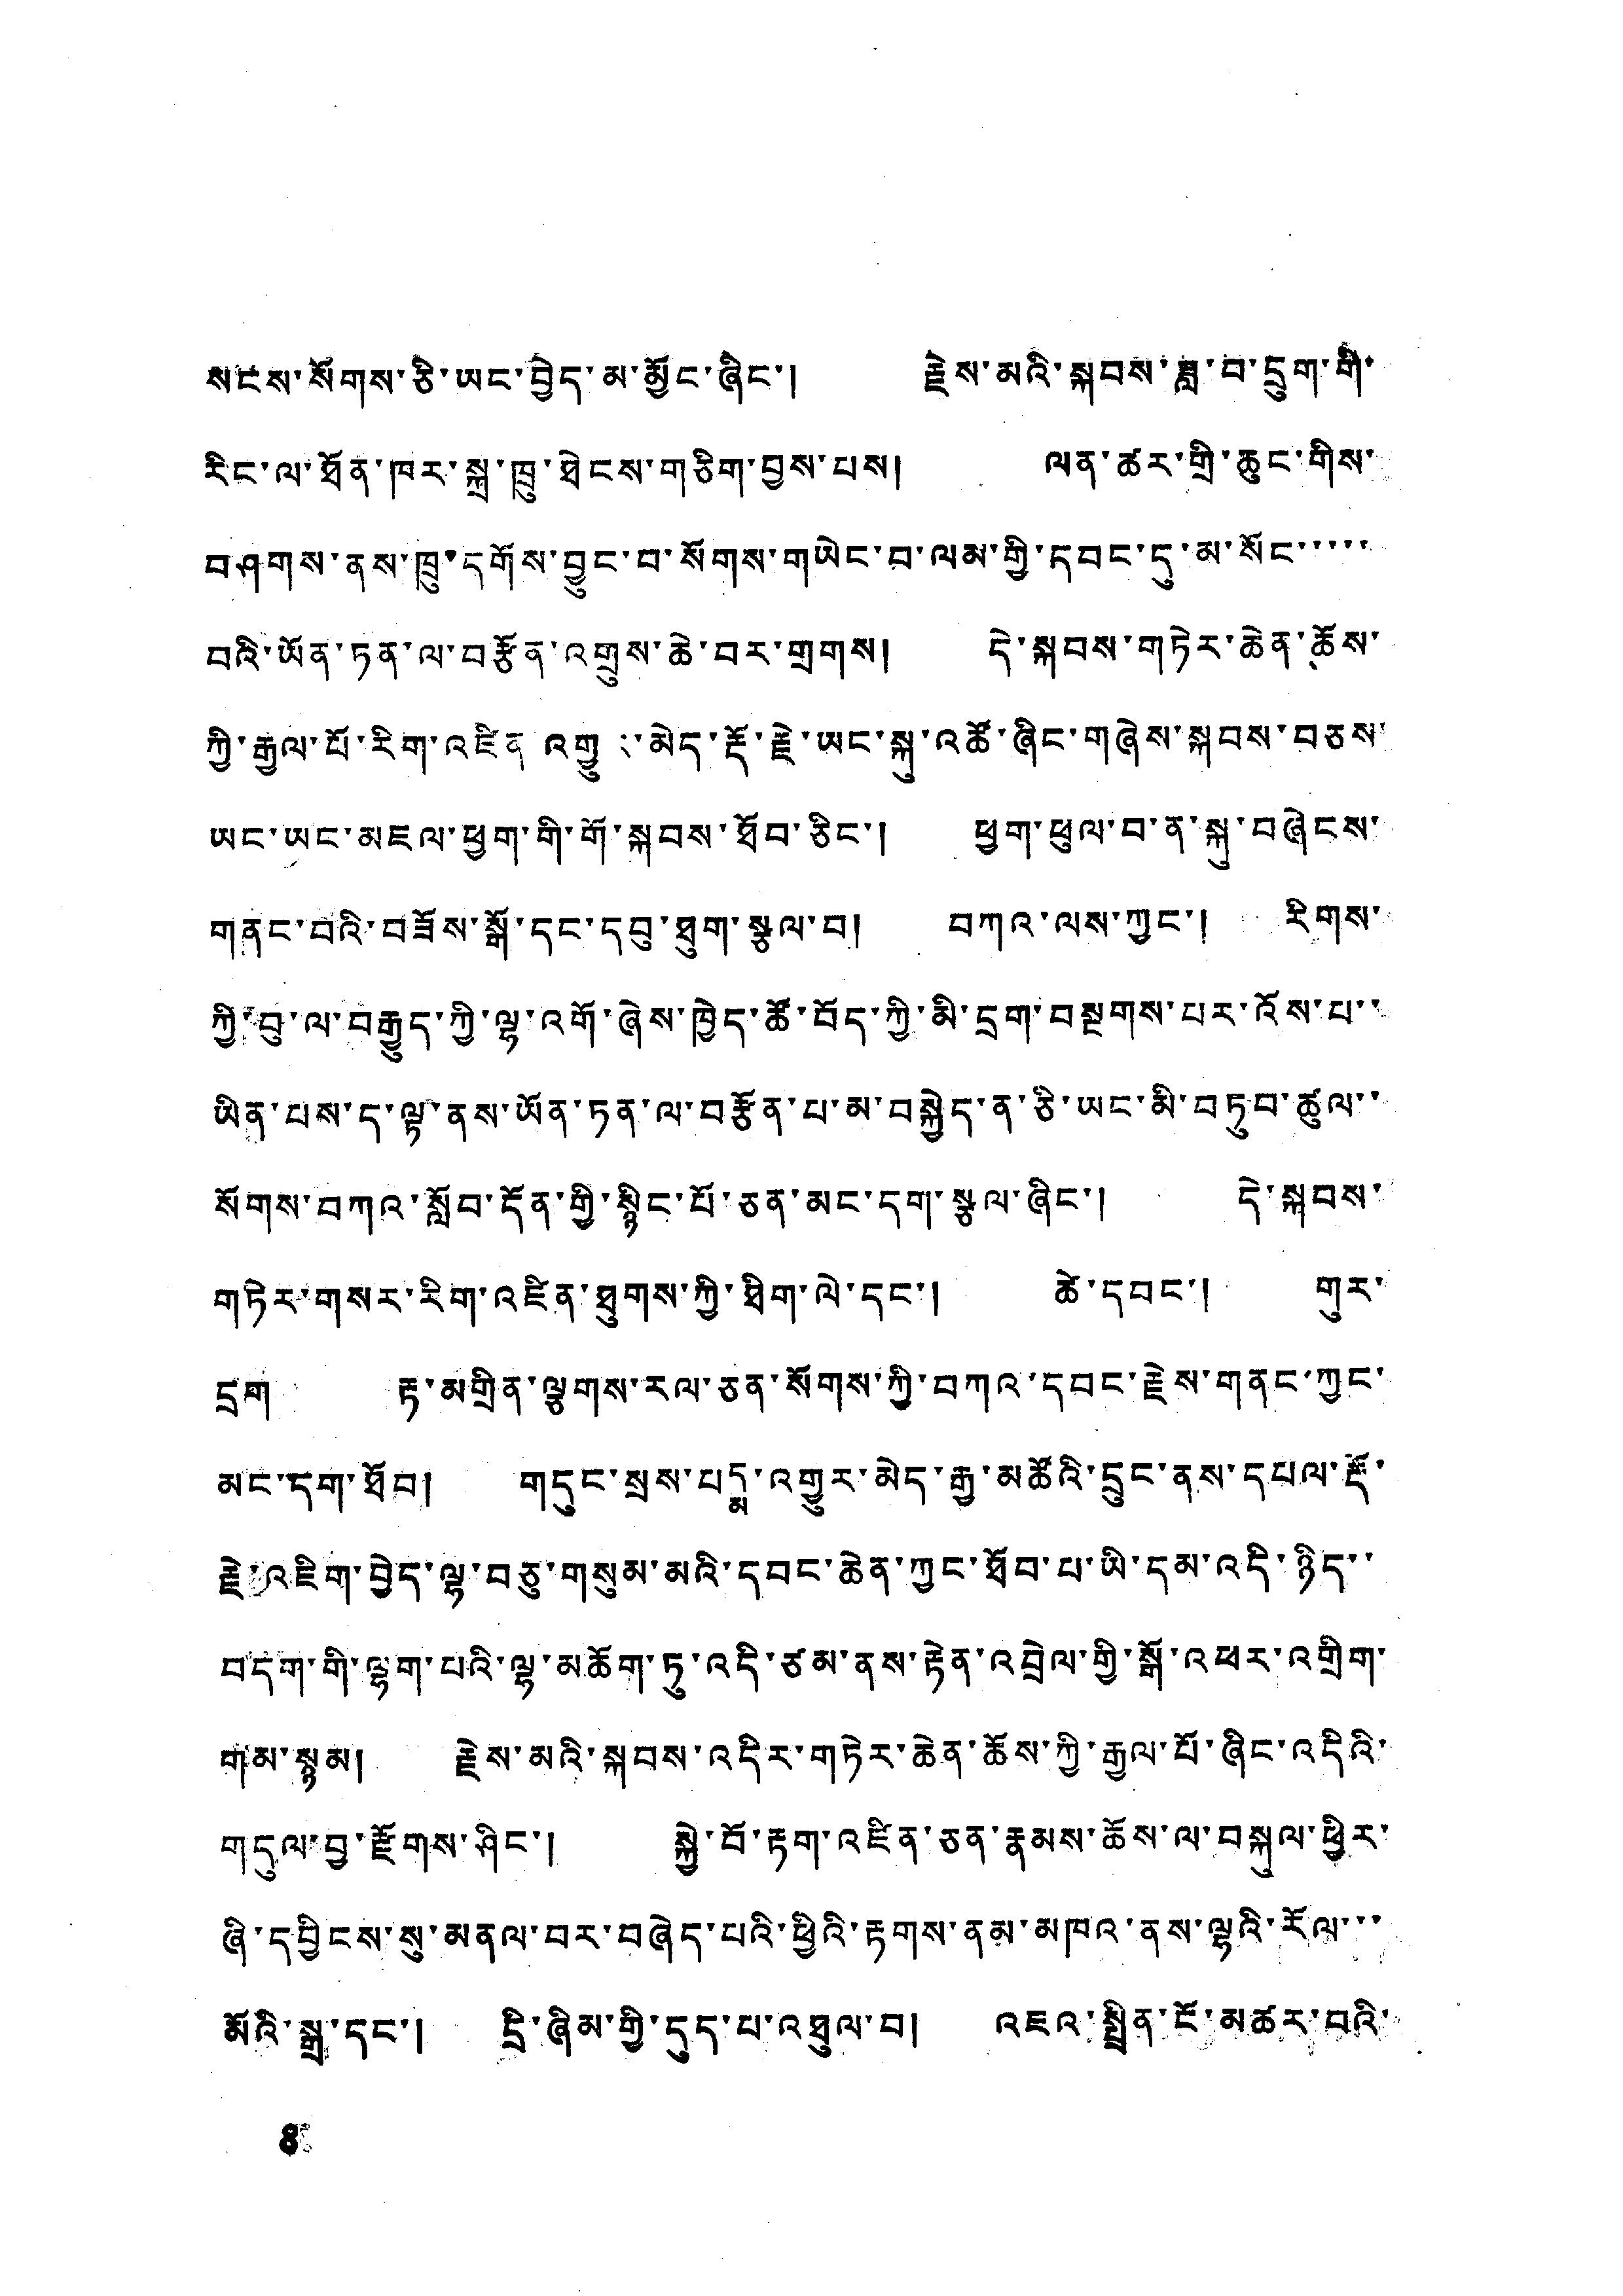སངས་སོགས་ཅི་ཡང་བྱེད་མ་མྱོང་ཞིང་། རྗེས་མའི་སྐབས་ཟླ་བ་དྲུག་གི་
རིང་ལ་ཐོན་ཁར་སྐྲ་ཁྲུ་ཐེངས་གཅིག་བྱས་པས། ལན་ཚར་གྱི་ཆུང་གིས་
བཤགས་ནས་ཁྲུ་དགོས་བྱུང་བ་སོགས་གཡེང་བ་ལམ་གྱི་དབང་དུ་མ་སོང་་་་་
བའི་ཡོན་ཏན་ལ་བརྩོན་འགྲུས་ཆེ་བར་གྲགས། དེ་སྐབས་གཏེར་ཆེན་ཆོས་
ཀྱི་རྒྱལ་པོ་རིག་འཛིན་འགྱུར་མེད་རྡོ་རྗེ་ཡང་སྐུ་འཚོ་ཞིང་གཞེས་སྐབས་བཅས་
ཡང་ཡང་མཇལ་ཕྱག་གི་གོ་སྐབས་ཐོབ་ཅིང་། ཕྱག་ཕུལ་བ་ན་སྐུ་བཞེངས་
གནང་བའི་བཟོས་སྒོ་དང་དབུ་ཐུག་སྩལ་བ། བཀའ་ལས་ཀྱང་། རིགས་
ཀྱི་བུ་ལ་བརྒྱུད་ཀྱི་ལྷ་འགོ་ཞེས་ཁྱེད་ཚོ་བོད་ཀྱི་མི་དྲག་བསྔགས་པར་འོས་པ་་
ཡིན་པས་ད་ལྟ་ནས་ཡོན་ཏན་ལ་བརྩོན་པ་མ་བསྐྱེད་ན་ཅི་ཡང་མི་བཏུབ་ཚུལ་་
སོགས་བཀའ་སློབ་དོན་གྱི་སྙིང་པོ་ཅན་མང་དག་སྩལ་ཞིང་། དེ་སྐབས་་
གཏིར་གསར་རིག་འཛིན་ཐུགས་ཀྱི་ཐིག་ལེ་དང་། ཚེ་དབང་། གུར་
དྲག རྟ་མགྲིན་ལྕགས་རལ་ཅན་སོགས་ཀྱི་བཀའ་དབང་རྗེས་གནང་ཀྱང་
མང་དག་ཐོབ། གདུང་སྲས་པདྨ་འགྱུར་མེད་རྒྱུ་མཚོའི་དྲུང་ནས་དཔལ་རྡོ་
རྗེ་འཇིག་བྱེད་ལྷ་བཅུ་གསུམ་མའི་དབང་ཆེན་ཀྱང་ཐོབ་པ་ཡི་དམ་འདི་ཉིད་་
བདག་གི་ལྷག་པའི་ལྷ་མཆོག་ཏུ་འདི་ཙམ་ནས་རྟེན་འབྲེལ་གྱི་སྒོ་འཕར་འགྲིག་
གམ་སྙམ། རྗེས་མའི་སྐབས་འདིར་གཏེར་ཆེན་ཆོས་ཀྱི་རྒྱལ་པོ་ཞིང་འདིའི་
གདུལ་བྱ་རྫོགས་ཤིང་། སྐྱེ་བོ་རྟག་འཛིན་ཅན་རྣམས་ཆོས་ལ་བསྐུལ་ཕྱིར་
ཞི་དབྱིངས་སུ་མནལ་བར་བཞེད་པའི་ཕྱིའི་རྟགས་ནམ་མཁའ་ནས་ལྷའི་རོལ་་་
མོའི་སྒྲ་དང་། དྲི་ཞིམ་གྱི་དུད་པ་འཐུལ་བ། འཇའ་སྤྱིན་ངོ་མཚར་བའི་
8
